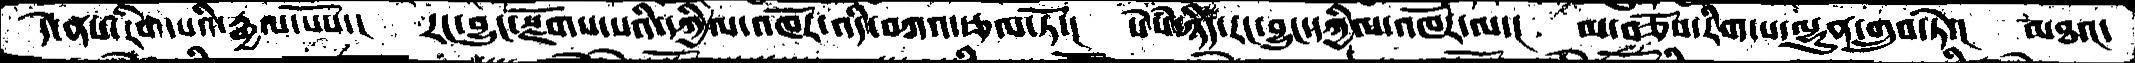དེ་ནས་རིག་པའི་རྒྱལ་པོས་།  རང་བྱུང་སྫོགས་པའི་དཀྱིལ་འཁོར་འདི་བཀའ་རྩལ་ཏོ་།  སེཾས་ཉིད་རང་བྱུང་དཀྱིལ་འཁོར་ལ་།  མ་བཅོས་རིག་པ་ལྷུན་གྲུབ་ཏེ་།  མཐའ་
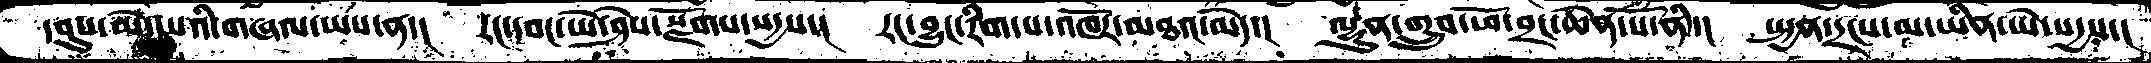དབུས་མེད་པའི་གཞལ་ཡས་ན་།  རང་དབང་ཡེ་ཤེས་སྫོགས་སདྱས་།  རང་བྱུང་རིག་པ་འཁོར་མཐའ་མེད་།  ལྷུན་གྲུབ་ཕོ་བྲང་ཆེན་པོ་ནི་།  སྤྱན་དྲངས་མ་ཡིན་ཡེ་སདྱས་།
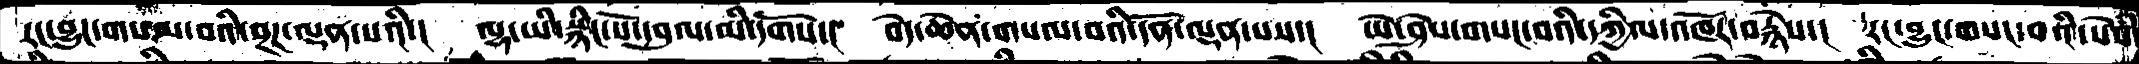རང་བྱུང་གསལ་བའི་སྔཌ་ལྡན་པའི་།  ལྷ་ཡི་སྙིང་པོ་དབུལ་མི་དགོས་།  བདེ་ཆེན་གསལ་བའི་དོན་ལྡན་པས་།  ཡེ་ཤེས་གསང་བའི་དཀྱིལ་འཁོར་བརྙེས་།  རང་བྱུང་གསང་བའི་སེཾས་
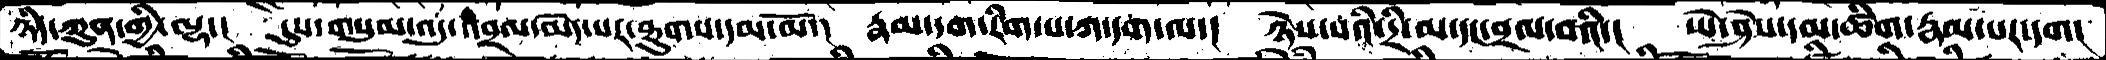ཉིད་ཀུན་གྱི་ལྷ་།  དུས་གསུམ་འདུ་འབྲལ་མེད་པར་ཐུགས་དམ་མོ་།  རྣམ་དག་རིག་པ་ཀ་དག་ལ་།  ཉེས་པའི་དྲི་མ་དང་བྲལ་བའི་།  ཡེ་ཤེས་དམ་ཚིག་རྣམ་པར་དག།
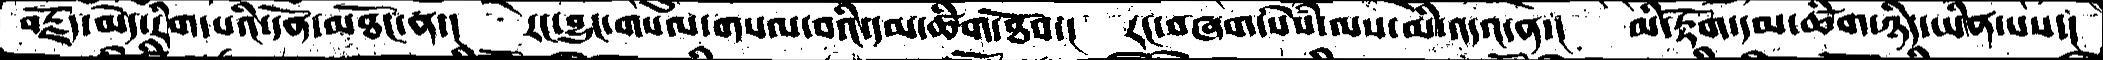བརྗོད་མེད་རིག་པའི་དོན་མཐོང་ན་།  རང་བྱུང་གསལ་གསལ་བའི་དམ་ཚིག་ཐོབ་།  རང་བཞག་སེཾས་ལས་མི་འདའ་ན་།  མི་རྟོག་དམ་ཚིག་ཉིད་ཡིན་པས་།
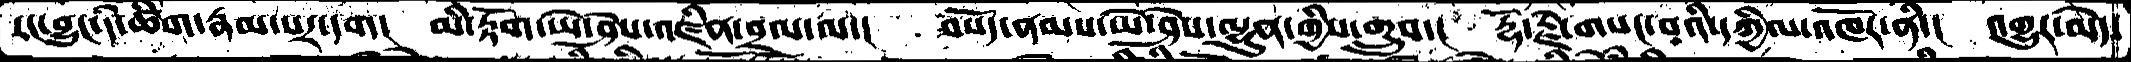རང་བྱུང་དཾ་ཚིག་རྣམ་པར་དག།  མི་རྟོག་ཡེ་ཤེས་འཛིན་བྲལ་ལ་།  བསོད་ནམས་ཡེ་ཤེས་ལྷུན་གྱིས་གྲུབ་།  རྡོ་རྗེ་གསང་བའི་དཀྱིལ་འཁོར་ནི་།  འགྱུར་མེད་
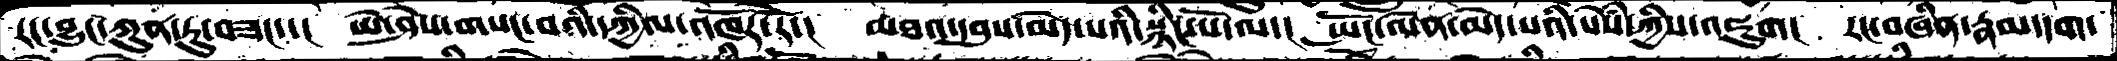རང་བྱུང་ཀུན་ཏུ་བཟང་།  ཡེ་ཤེས་གསང་བའི་དཀྱིལ་འཁོར་རོ་།  མཐའ་དབུས་མེད་པའི་སྙིང་པོ་ལ་།  སྤོང་ལེན་མེད་པའི་སེསཾ་ཀྱིས་འཇུག།  རང་བཞིན་རྣམ་དག་
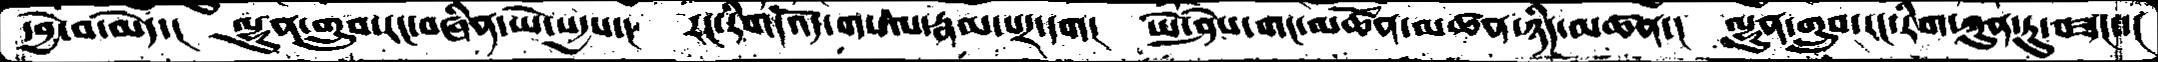དབྱེ་བ་མེད།  ལྷུན་གྲུབ་རང་བཞིན་ཡེ་སདྱས་།  རང་རིག་འོད་གསལ་རྣམ་པར་དག།  ཡེ་ཤེས་གང་མཚོན་མཚན་ཉིད་མཚན་།  ལྷུན་གྲུབ་རང་རིག་ཀུན་ཏུ་བཟང་།
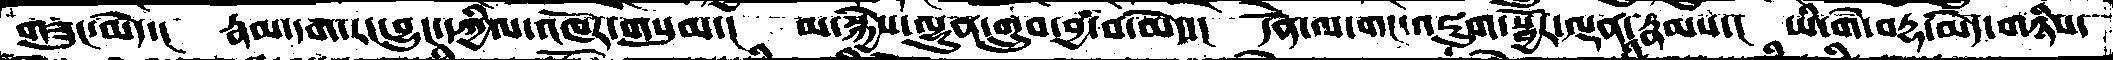གཟུང་མེད་།  རྣམདག་རང་བྱུང་དཀྱིལ་འཁོར་གསུམ་།  མ་སྐྱེས་ལྷུན་གྲུབ་བྱ་བ་མེད་།  དོན་ལ་གང་འཇུག་སྦྱོར་ལྡན་རྣམས་།  ཡི་གེ་བརྡ་མེད་གཉིས་
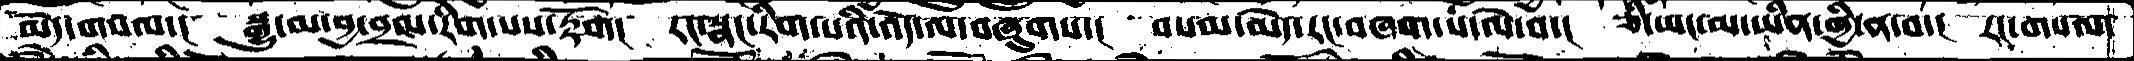མེད་གསལ་།  སྒྱུ་མ་བྱ་བྲལ་རིག་པས་རྟོག།  རང་སྣང་རིག་པའི་འོད་ལ་བཞུགས་།  བསམ་མེད་རང་བཞག་ས་ལེ་བ་།  ཅི་ཡང་མ་ཡིན་གྱི་ན་བ་།  རང་གསལ་
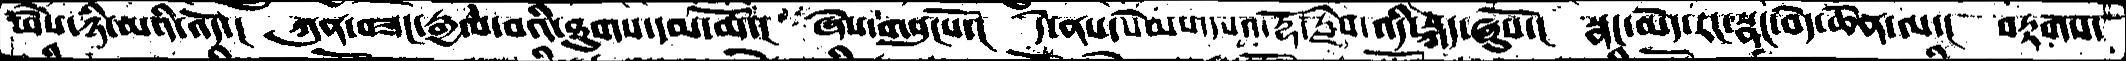ཡཻས་ཉི་མའི་འོད་།  ཀུན་བཟང་རྒྱལ་བའི་ཐུགས་དམ་མོ་།  ཞེས་གསུངསོ་།  དེ་ནས་སེམས་དཔའ་རྡོ་རྗེ་འདི་སྐད་ཞུསོ་།  སྣང་མེད་རང་སྣང་བདེ་ཆེན་ལ་།   བརྟགས་
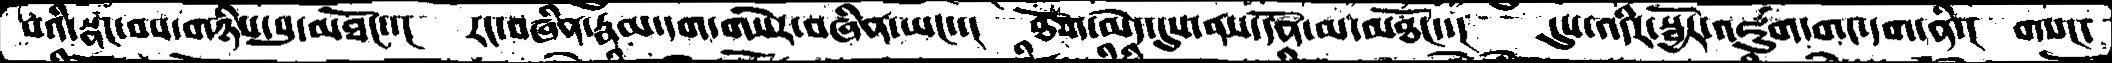པའི་སྣང་པས་གཉིས་སུ་མཐོང་་།   རང་བཞིན་རྣམ་དག་གསེར་བཞིན་ཡང་་།   ཐོག་མེད་དུས་ནས་དོན་མ་མཐོང་་།      དུས་འདིར་སྦྱོར་འཇུག་གང་དག་ནི་།  གསང་
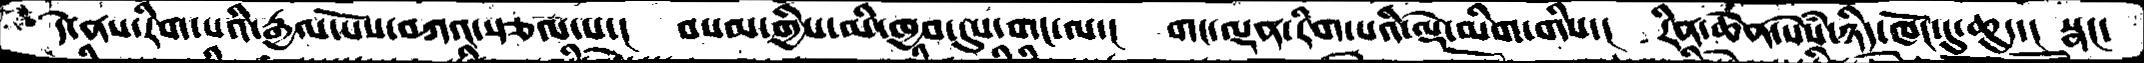དེ་ནས་རིག་པའི་རྒྱལ་པོས་བཀའ་སྩལ་པ་།   བསམ་གྱིས་མི་ཁྱབ་དུས་གང་ལ་།   གང་ལྡན་རིག་པའི་ལྡེ་མིག་གིས་།   རིན་ཆེན་སེསཾ་ཉིད་ཁོང་དུ་ཆུད་།  སྣང་
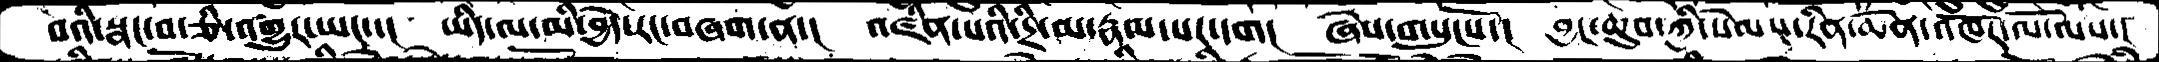བའི་སྣང་བ་ཅི་འགྱུར་ཡང་།   ཡིད་ལ་མི་བྱེད་རང་བཞག་ན་།   འཛིན་པའི་དྲི་མ་རྣམ་པར་དག།   ཞེས་གསུངསོ་།  བྱང་ཆུབ་ཀྱི་སེམས་རིན་ཆེན་འཁོར་ལོ་ལས་།
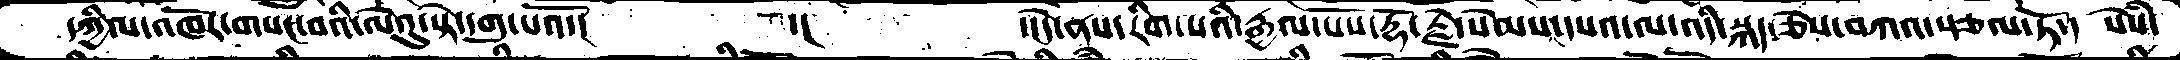དཀྱིལ་འཁོར་གསང་བའི་ལེའུ་སྟེ་དགུ་པའོ།       ་།    ་།དེ་ནས་རིག་པའི་རྒྱལ་པོས་རྡོ་རྗེ་སེམས་དཔའ་ལ་འདི་སྐད་ཅེས་བཀའ་རྩལ་ཏོ་།  སེསཾ་
